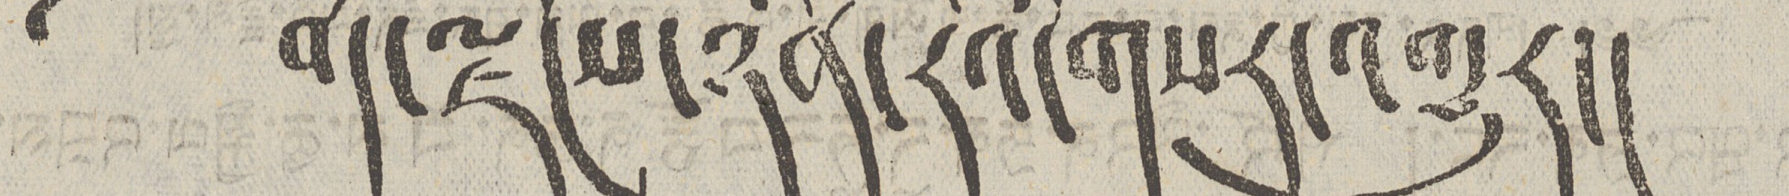༄ བོད་ལྗོངས་ཉིན་རེའི་གསར་འགྱུར།
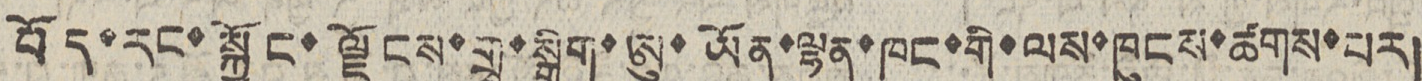བོད་རང་སྐྱོང་ལྗོངས་གྲྭ་སྒྲིག་ཨུ་ཡོན་ལྷན་ཁང་གི་ལས་ཁུངས་ཚགས་པར།
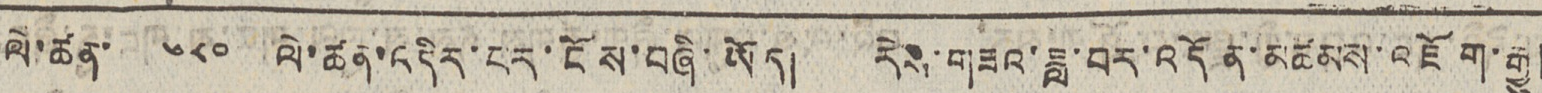ལི་ཚན་ ༦༨༠ ལེ་ཚན་འདིར་པར་ངོས་བཞི་ཡོད། རེས་གཟའ་ཟླ་བར་འདོན་མཚམས་འཇོག་རྒྱུ།
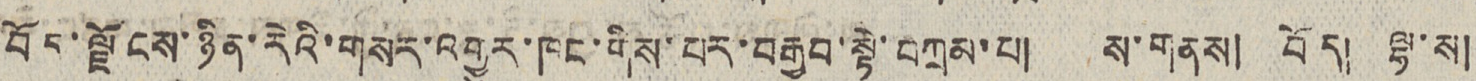བོད་ལྗོངས་ཉིན་རེའི་གསར་འགྱུར་ཁང་གིས་པར་བརྒྱབ་སྟེ་བཀྲམ་པ། ས་གནས། བོད། ལྟ་ས།
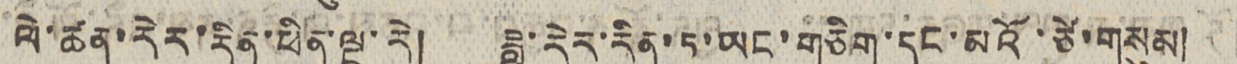ལེ་ཚན་རེར་རིན་ཕིན་ལྔ་རེ། ཟླ་རིར་རིན་ཏཱ་ཡང་གཅིག་དང་མའོ་ཙེ་གསུམ།
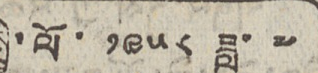སྤྱི་ལོ་ ༡༩༥༨ ཟླ་ ༧
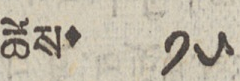ཚེས་ ༡༥
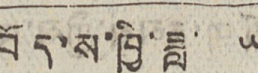བོད་ས་ཁྱི་ཟླ་ ༥
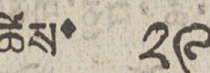ཚེས་ ༢༩
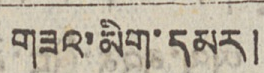གཟའ་མིག་དམར།
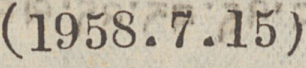(1958.7.15)
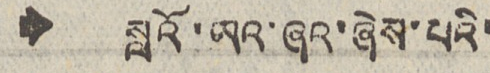🠺 སླའོ་ཡའ་ཞའ་ཞེས་པའི་
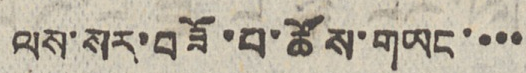ལས་སར་བཟོ་པ་ཚོས་གཡང་་་་
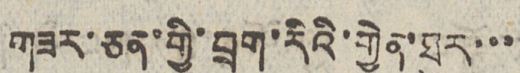གཟར་ཅན་གྱི་བྲག་རིའི་གྱེན་ཐུར་་་
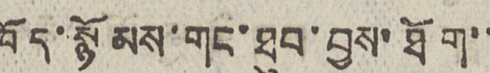ཁོད་སྙོམས་གང་ཐུབ་བྱས་ཐོག་་
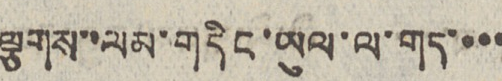ལྕགས་་ལམ་གདིང་ཡུལ་ལ་གད་་་་
